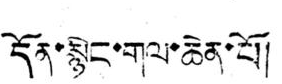དོན་སྙིང་གལ་ཆེན་པོ།
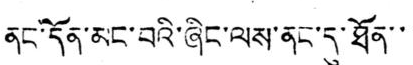ནང་དོན་མང་བའི་ཞིང་ལས་ནང་དུ་ཐོན་་་
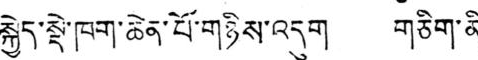སྐྱེད་སྡེ་ཁག་ཆེན་པོ་གཉིས་འདུག གཅིག་ནི་
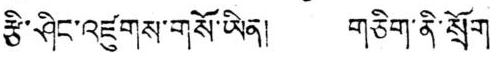རྩི་ཤིང་འཛུགས་གསོ་ཡིན། གཅིག་ནི་སྲོག་
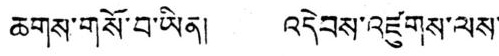ཆགས་གསོ་བ་ཡིན། འདེབས་འཛུགས་ལས་
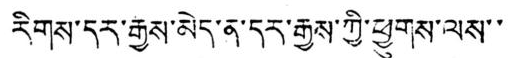རིགས་དར་རྒྱས་མེད་ན་དར་རྒྱས་ཀྱི་ཕྱུགས་ལས་་
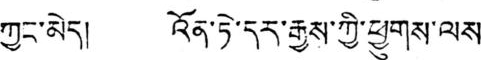ཀྱང་མེད། འོན་ཏེ་དར་རྒྱས་ཀྱི་ཕྱུགས་ལས་
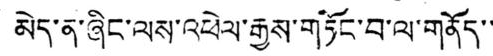མེད་ན་ཞིང་ལས་འཕེལ་རྒྱས་གཏོང་བ་ལ་གནོད་་་
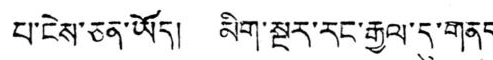པ་ངེས་ཅན་ཡོད། མིག་སྔར་རང་རྒྱལ་དུ་གནད་
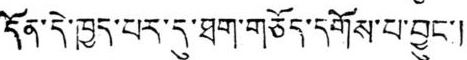དོན་དེ་ཁྱད་པར་དུ་ཐག་གཅོད་དགོས་པ་བྱུང་།
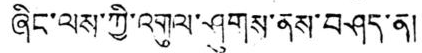ཞིང་ལས་ཀྱི་འགུལ་ཤུགས་ནས་བཤད་ན།
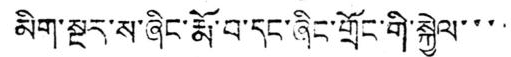མིག་སྔར་ས་ཞིང་རྨོ་བ་དང་ཞིང་གྲོང་གི་སྐྱེལ་་་་
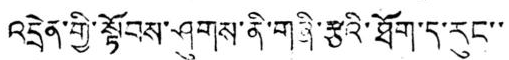འདྲེན་གྱི་སྟོབས་ཤུགས་ནི་གཞི་རྩའི་ཐོག་ད་རུང་་
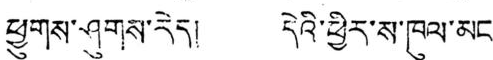ཕྱུགས་ཤུགས་རེད། དེའི་ཕྱིར་ས་ཁུལ་མང་
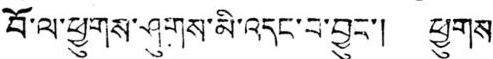བོ་ལ་ཕྱུགས་ཤུགས་མི་འདང་བ་བྱུང་། ཕྱུགས་
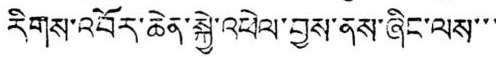རིགས་འབོར་ཆེན་སྐྱེ་འཕེལ་བྱས་ནས་ཞིང་ལས་་་
